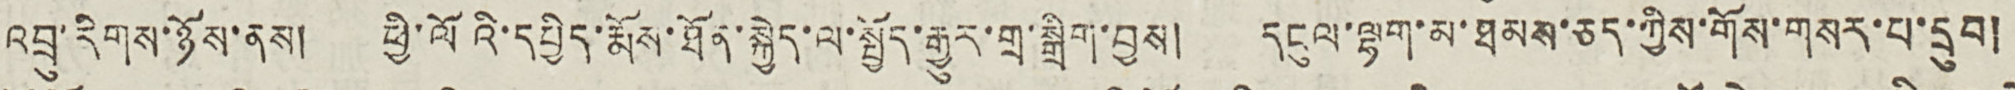འབྲུ་རིགས་ཉོས་ནས། ཕྱོ་ལོའི་དཔྱིད་རྨོས་ཐོན་སྐྱེད་ལ་སྤྱོད་རྒྱུར་གྲྭ་སྒྲིག་བྱས། དངུལ་ལྷག་མ་ཐམས་ཅད་ཀྱིས་གོས་གསར་པ་དྲུབ།
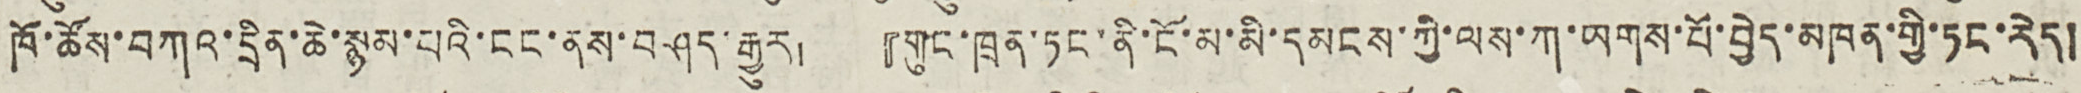ཁོ་ཚོས་བཀའ་དྲིན་ཆེ་སྙམ་པའི་ངང་ནས་བཤད་རྒྱུར། 『གུང་ཁྲན་ཏང་ནི་ངོ་མ་མི་དམངས་ཀྱི་ལས་ཀ་ཡགས་པོ་བྱེད་མཁན་གྱི་ཏང་རེད།
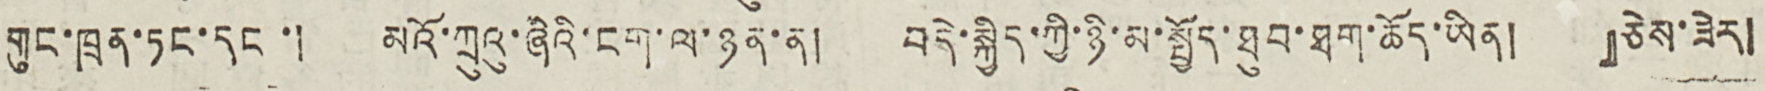གུང་ཁྲན་ཏང་དང་། མའོ་ཀྲུའུ་ཞིའི་ངག་ལ་ཉན་ན། བདེ་སྐྱིད་ཀྱི་ཉི་མ་སྤྱོད་ཐུབ་ཐག་ཆོད་ཡིན། 』ཅེས་ཟེར།
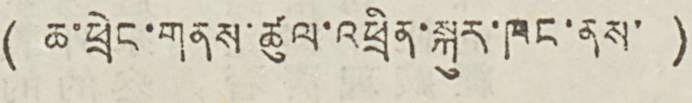( ཆ་ཕྲེང་གནས་ཚུལ་འཕྲིན་སྐུར་ཁང་ནས་ )
